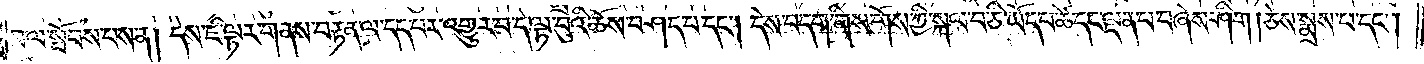བ་ལ་སྤོབས་པས་ན། དེས་ཇི་ལྟར་གནས་བརྟན་ལ་དད་པར་འགྱུར་པ་དེ་ལྟ་བུའི་ཆོས་བཤད་པ་དང༌། དེས་བདག་གིས་གོས་ཀྱི་སྐལ་བ་ཅི་ཡོད་པ་ཚེ་དང་ལྡན་པ་བཞེས་ཤིག །ཅེས་སྨྲས་པ་དང༌།
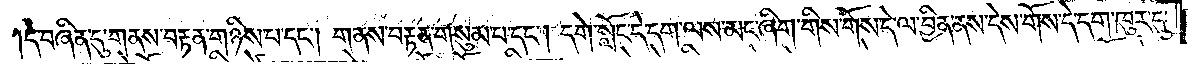དེ་བཞིན་དུ་གནས་བརྟན་གཉིས་པ་དང༌། གནས་བརྟན་གསུམ་པ་དང༌། དགེ་སློང་དེ་དག་ལས་མང་ཞིག་གིས་གོས་དེ་ལ་བྱིན་ནས་དེས་གོས་དེ་དག་ཁུར་དུ་
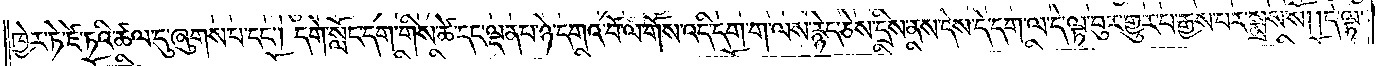ཁྱེར་ཏེ་ཛེ་ཏའི་ཚལ་དུ་ཞུགས་པ་དང༌། དགེ་སློང་དག་གིས་ཚེ་དང་ལྡན་པ་ཉེ་དགའ་བོ་ལ་གོས་འདི་དག་ག་ལས་རྙེད་ཅེས་དྲིས་ནས་དེས་དེ་དག་ལ་དེ་ལྟ་བུར་གྱུར་པ་རྒྱས་པར་སྨྲས་སོ། །དེ་ལྟ་
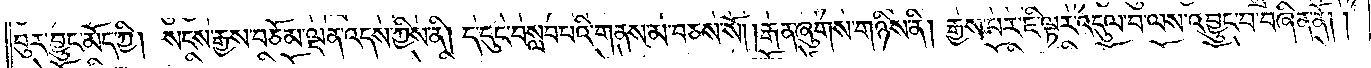བུར་བྱུང་མོད་ཀྱི། སངས་རྒྱས་བཅོམ་ལྡན་འདས་ཀྱིས་ནི། ད་དུང་བསླབ་པའི་གནས་མ་བཅས་སོ། །རྒན་ཞུགས་གཉིས་ནི། རྒྱས་པར་ཇི་ལྟར་འདུལ་བ་ལས་འབྱུང་བ་བཞིན་ནོ། །
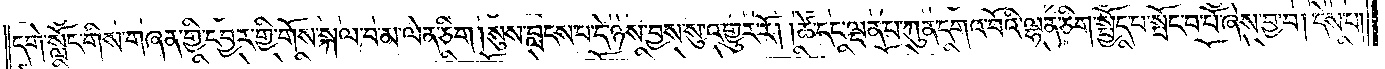དགེ་སློང་གིས་གཞན་གྱི་དབྱར་གྱི་གོས་སྐལ་བ་མ་ལེན་ཅིག །སུས་བླངས་པ་དེ་ཉེས་བྱས་སུ་འགྱུར་རོ། །ཚེ་དང་ལྡན་པ་ཀུན་དགའ་བོའི་ལྷན་ཅིག་སྤྱོད་པ་སྤོང་བ་པོ་ཞེས་བྱ་བ། དེས་པ།
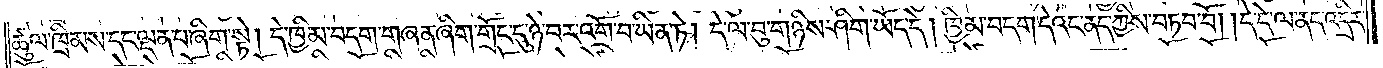ཚུལ་ཁྲིམས་དང་ལྡན་པ་ཞིག་སྟེ། དེ་ཁྱིམ་བདག་གཞན་ཞིག་གྲོང་དུ་ཉེ་བར་འགྲོ་བ་ཡིན་ཏེ། དེ་ལ་བུ་གཉིས་ཤིག་ཡོད་དེ། ཁྱིམ་བདག་དེའང་ནད་ཀྱིས་བཏབ་བོ། །དེ་དེ་ལ་ནད་འདྲིར་
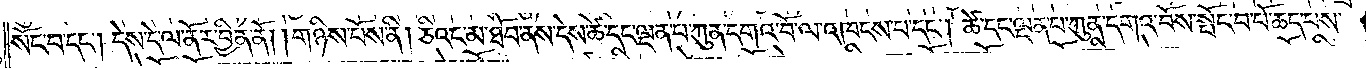སོང་བ་དང༌། དེས་དེ་ལ་ནོར་བྱིན་ནོ། །གཉིས་པོས་ནི། ཅིའང་མ་ཐོབ་ནས་དེས་ཚེ་དང་ལྡན་པ་ཀུན་དགའ་བོ་ལ་འཁངས་པ་དང༌། ཚེ་དང་ལྡན་པ་ཀུན་དགའ་བོས་སྤོང་བ་པོ་ཆད་པས་
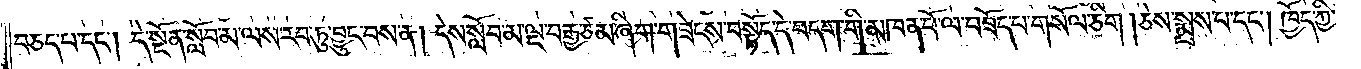བཅད་པ་དང༌། དེ་སྔོན་སློབ་མ་ལས་རབ་ཏུ་བྱུང་བས་ན། དེས་སློབ་མ་ལྔ་བརྒྱ་ཙམ་ཞིག་གཟེངས་བསྟོད་དེ་བདག་གི་མཁན་པོ་ལ་བཟོད་པ་གསོལ་ཅིག །ཅེས་སྨྲས་པ་དང༌། ཁྱོད་ཀྱི་
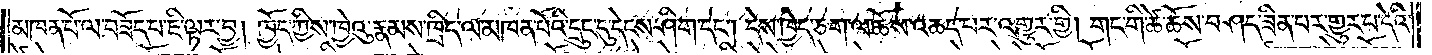མཁན་པོ་ལ་བཟོད་པ་ཇི་ལྟར་བྱ། ཁྱོད་ཀྱིས་ཁྱེའུ་རྣམས་ཁྲིད་ལ་མཁན་པོའི་དྲུང་དུ་དེངས་ཤིག་དང༌། དེས་ཁྱེད་ཅག་ལ་ཆོས་འཆད་པར་འགྱུར་གྱི། གང་གི་ཚེ་ཆོས་བཤད་ཟིན་པར་གྱུར་པ་དེའི་
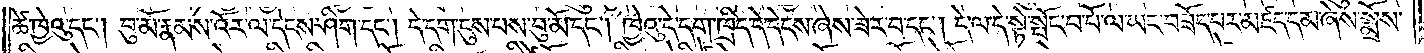ཚེ་ཁྱེའུ་དང༌། བུ་མོ་རྣམས་འོར་ལ་དེངས་ཤིག་དང༌། དེ་དག་ངུས་པས་བུ་མོ་དང༌། ཁྱེའུ་དེ་དག་ཁྲིད་དེ་དེངས་ཞེས་ཟེར་བ་དང༌། དེ་ལ་དེ་སྟེ་སྤོང་བ་པོ་ལ་ཡང་བཟོད་པར་མཛད་དམ་ཞེས་སྨྲོས་
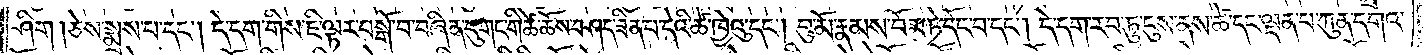ཤིག །ཅེས་སྨྲས་པ་དང༌། དེ་དག་གིས་ཇི་ལྟར་བསྒོ་བ་བཞིན་དུ་གང་གི་ཚེ་ཆོས་བཤད་ཟིན་པ་དེའི་ཚེ་ཁྱེའུ་དང༌། བུ་མོ་རྣམས་བོར་ཏེ་དོང་བ་དང༌། དེ་དག་རབ་ཏུ་ངུས་ནས་ཚེ་དང་ལྡན་པ་ཀུན་དགའ་
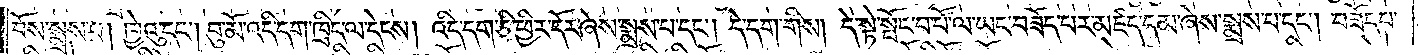བོས་སྨྲས་པ། ཁྱེའུ་དང༌། བུ་མོ་འདི་དག་ཁྲིད་ལ་དེངས། འདི་དག་ཅི་ཕྱིར་དོར་ཞེས་སྨྲས་པ་དང༌། དེ་དག་གིས། དེ་སྟེ་སྤོང་བ་པོ་ལ་ཡང་བཟོད་པར་མཛད་དམ་ཞེས་སྨྲས་པ་དང༌། བཟོད་པ་
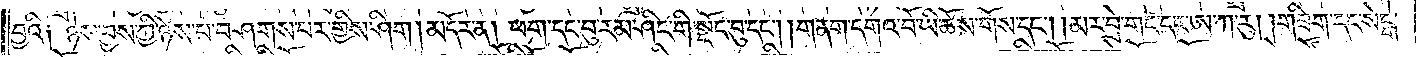བྱའི༑ ཉེས་བྱས་ཀྱི་ཉེས་པ་བཤགས་པར་གྱིས་ཤིག །མདོར་ན། ཕག་དང་བུ་རམ་ཤིང་གི་སྡོང་བུ་དང༌། གནག་དགའ་བོ་ཡི་ཆོས་གོས་དང༌། །མར་བྲེ་གང་དང་ཨ་ཀ་རུ། །གཟིག་དང་སེངྒེ་
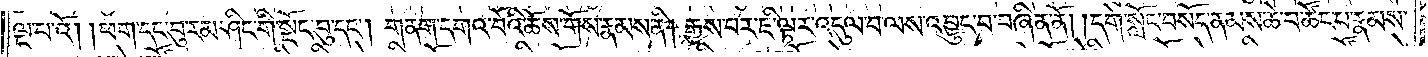ལྔ་པའོ། །ཕག་དང་བུ་རམ་ཤིང་གི་སྡོང་བུ་དང༌། གནག་དགའ་བོའི་ཆོས་གོས་རྣམས་ནི། རྒྱས་པར་ཇི་ལྟར་འདུལ་བ་ལས་འབྱུང་བ་བཞིན་ནོ། །དགེ་སློང་བསོད་ནམས་ཆེ་བ་ཚོང་བ་རྣམས་
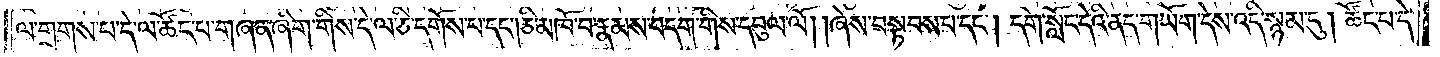ལ་གྲགས་པ་དེ་ལ་ཚོང་པ་གཞན་ཞིག་གིས་དེ་ལ་ཅི་དགོས་པ་དང༌། ཅི་མཁོ་བ་རྣམས་བདག་གིས་དབུལ་ལོ། །ཞེས་བསྟབས་པ་དང༌། དགེ་སློང་དེའི་ནད་གཡོག་དེས་འདི་སྙམ་དུ། ཚོང་པ་དེ་
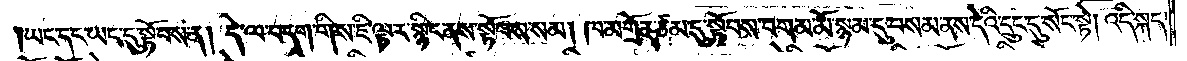ཡང་དང་ཡང་དུ་སྟོབས་ན། དེ་ལ་བདག་གིས་ཇི་ལྟར་སྙིང་ནས་སྟོབས་སམ། ཁ་མགྲོན་ཙམ་དུ་སྟོབས་བགམ་མོ་སྙམ་དུ་བསམ་ནས་དེའི་དྲུང་དུ་སོང་སྟེ། འདི་སྐད་
